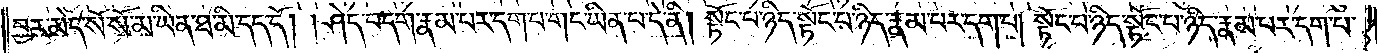བྱར་མེད་སོ་སོ་མ་ཡིན་ཐ་མི་དད་དོ། །ཤེད་བདག་རྣམ་པར་དག་པ་གང་ཡིན་པ་དེ་ནི། སྟོང་པ་ཉིད་སྟོང་པ་ཉིད་རྣམ་པར་དག་པ། སྟོང་པ་ཉིད་སྟོང་པ་ཉིད་རྣམ་པར་དག་པ་
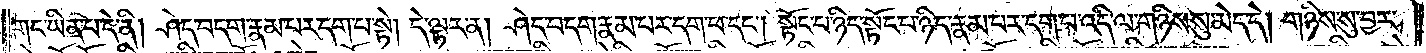གང་ཡིན་པ་དེ་ནི། ཤེད་བདག་རྣམ་པར་དག་པ་སྟེ། དེ་ལྟར་ན། ཤེད་བདག་རྣམ་པར་དག་པ་དང༌། སྟོང་པ་ཉིད་སྟོང་པ་ཉིད་རྣམ་པར་དག་པ་འདི་ལ་གཉིས་སུ་མེད་དེ། གཉིས་སུ་བྱར་
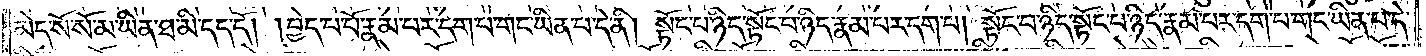མེད་སོ་སོ་མ་ཡིན་ཐ་མི་དད་དོ། །བྱེད་པ་པོ་རྣམ་པར་དག་པ་གང་ཡིན་པ་དེ་ནི། སྟོང་པ་ཉིད་སྟོང་པ་ཉིད་རྣམ་པར་དག་པ། སྟོང་པ་ཉིད་སྟོང་པ་ཉིད་རྣམ་པར་དག་པ་གང་ཡིན་པ་དེ་
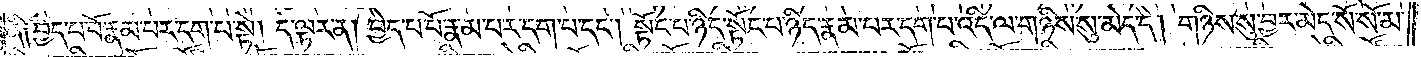ནི། བྱེད་པ་པོ་རྣམ་པར་དག་པ་སྟེ། དེ་ལྟར་ན། བྱེད་པ་པོ་རྣམ་པར་དག་པ་དང༌། སྟོང་པ་ཉིད་སྟོང་པ་ཉིད་རྣམ་པར་དག་པ་འདི་ལ་གཉིས་སུ་མེད་དེ། གཉིས་སུ་བྱར་མེད་སོ་སོ་མ་
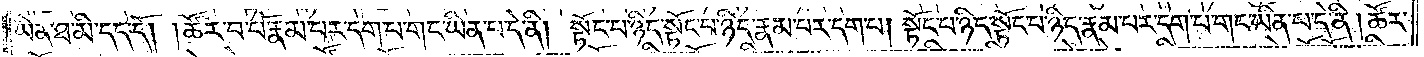ཡིན་ཐ་མི་དད་དོ། །ཚོར་བ་པོ་རྣམ་པར་དག་པ་གང་ཡིན་པ་དེ་ནི། སྟོང་པ་ཉིད་སྟོང་པ་ཉིད་རྣམ་པར་དག་པ། སྟོང་པ་ཉིད་སྟོང་པ་ཉིད་རྣམ་པར་དག་པ་གང་ཡིན་པ་དེ་ནི། ཚོར་
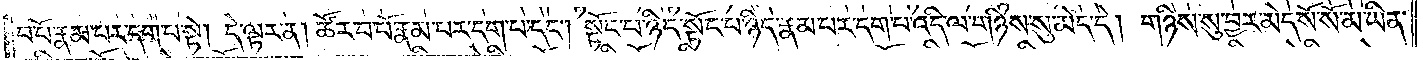བ་པོ་རྣམ་པར་དག་པ་སྟེ། དེ་ལྟར་ན། ཚོར་བ་པོ་རྣམ་པར་དག་པ་དང༌། སྟོང་པ་ཉིད་སྟོང་པ་ཉིད་རྣམ་པར་དག་པ་འདི་ལ་གཉིས་སུ་མེད་དེ། གཉིས་སུ་བྱར་མེད་སོ་སོ་མ་ཡིན་
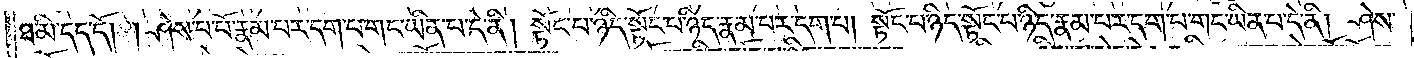ཐ་མི་དད་དོ། །ཤེས་པ་པོ་རྣམ་པར་དག་པ་གང་ཡིན་པ་དེ་ནི། སྟོང་པ་ཉིད་སྟོང་པ་ཉིད་རྣམ་པར་དག་པ། སྟོང་པ་ཉིད་སྟོང་པ་ཉིད་རྣམ་པར་དག་པ་གང་ཡིན་པ་དེ་ནི། ཤེས་
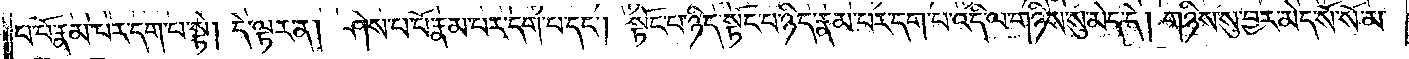པ་པོ་རྣམ་པར་དག་པ་སྟེ། དེ་ལྟར་ན། ཤེས་པ་པོ་རྣམ་པར་དག་པ་དང༌། སྟོང་པ་ཉིད་སྟོང་པ་ཉིད་རྣམ་པར་དག་པ་འདི་ལ་གཉིས་སུ་མེད་དེ། གཉིས་སུ་བྱར་མེད་སོ་སོ་མ་
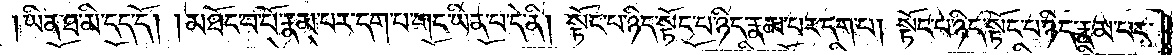ཡིན་ཐ་མི་དད་དོ། །མཐོང་བ་པོ་རྣམ་པར་དག་པ་གང་ཡིན་པ་དེ་ནི། སྟོང་པ་ཉིད་སྟོང་པ་ཉིད་རྣམ་པར་དག་པ། སྟོང་པ་ཉིད་སྟོང་པ་ཉིད་རྣམ་པར་
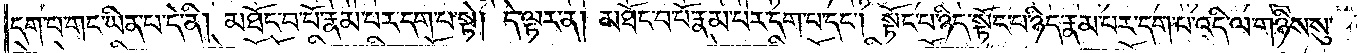དག་པ་གང་ཡིན་པ་དེ་ནི། མཐོང་བ་པོ་རྣམ་པར་དག་པ་སྟེ། དེ་ལྟར་ན། མཐོང་བ་པོ་རྣམ་པར་དག་པ་དང༌། སྟོང་པ་ཉིད་སྟོང་པ་ཉིད་རྣམ་པར་དག་པ་འདི་ལ་གཉིས་སུ་
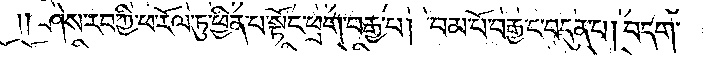༎ཤེས་རབ་ཀྱི་ཕ་རོལ་ཏུ་ཕྱིན་པ་སྟོང་ཕྲག་བརྒྱ་པ། །བམ་པོ་བརྒྱ་ང་བདུན་པ། །བདག་
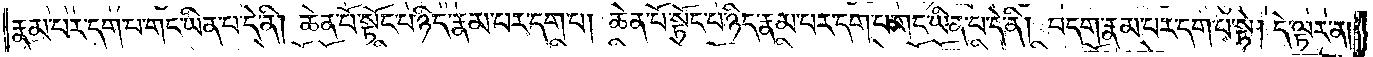རྣམ་པར་དག་པ་གང་ཡིན་པ་དེ་ནི། ཆེན་པོ་སྟོང་པ་ཉིད་རྣམ་པར་དག་པ། ཆེན་པོ་སྟོང་པ་ཉིད་རྣམ་པར་དག་པ་གང་ཡིན་པ་དེ་ནི། བདག་རྣམ་པར་དག་པ་སྟེ། དེ་ལྟར་ན།
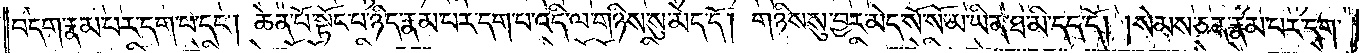བདག་རྣམ་པར་དག་པ་དང༌། ཆེན་པོ་སྟོང་པ་ཉིད་རྣམ་པར་དག་པ་འདི་ལ་གཉིས་སུ་མེད་དེ། གཉིས་སུ་བྱར་མེད་སོ་སོ་མ་ཡིན་ཐ་མི་དད་དོ། །སེམས་ཅན་རྣམ་པར་དག་
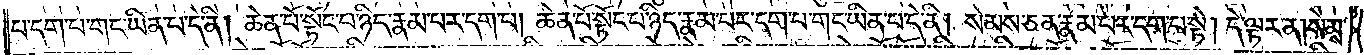པ་གང་ཡིན་པ་དེ་ནི། ཆེན་པོ་སྟོང་པ་ཉིད་རྣམ་པར་དག་པ། ཆེན་པོ་སྟོང་པ་ཉིད་རྣམ་པར་དག་པ་གང་ཡིན་པ་དེ་ནི། སེམས་ཅན་རྣམ་པར་དག་པ་སྟེ། དེ་ལྟར་ན། སེམས་
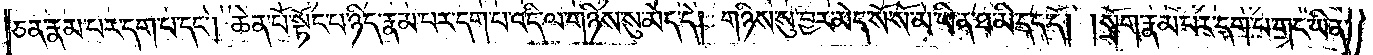ཅན་རྣམ་པར་དག་པ་དང༌། ཆེན་པོ་སྟོང་པ་ཉིད་རྣམ་པར་དག་པ་འདི་ལ་གཉིས་སུ་མེད་དེ། གཉིས་སུ་བྱར་མེད་སོ་སོ་མ་ཡིན་ཐ་མི་དད་དོ། །སྲོག་རྣམ་པར་དག་པ་གང་ཡིན་
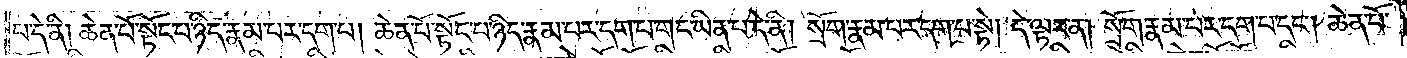པ་དེ་ནི། ཆེན་པོ་སྟོང་པ་ཉིད་རྣམ་པར་དག་པ། ཆེན་པོ་སྟོང་པ་ཉིད་རྣམ་པར་དག་པ་གང་ཡིན་པ་དེ་ནི། སྲོག་རྣམ་པར་དག་པ་སྟེ། དེ་ལྟར་ན། སྲོག་རྣམ་པར་དག་པ་དང༌། ཆེན་པོ་
